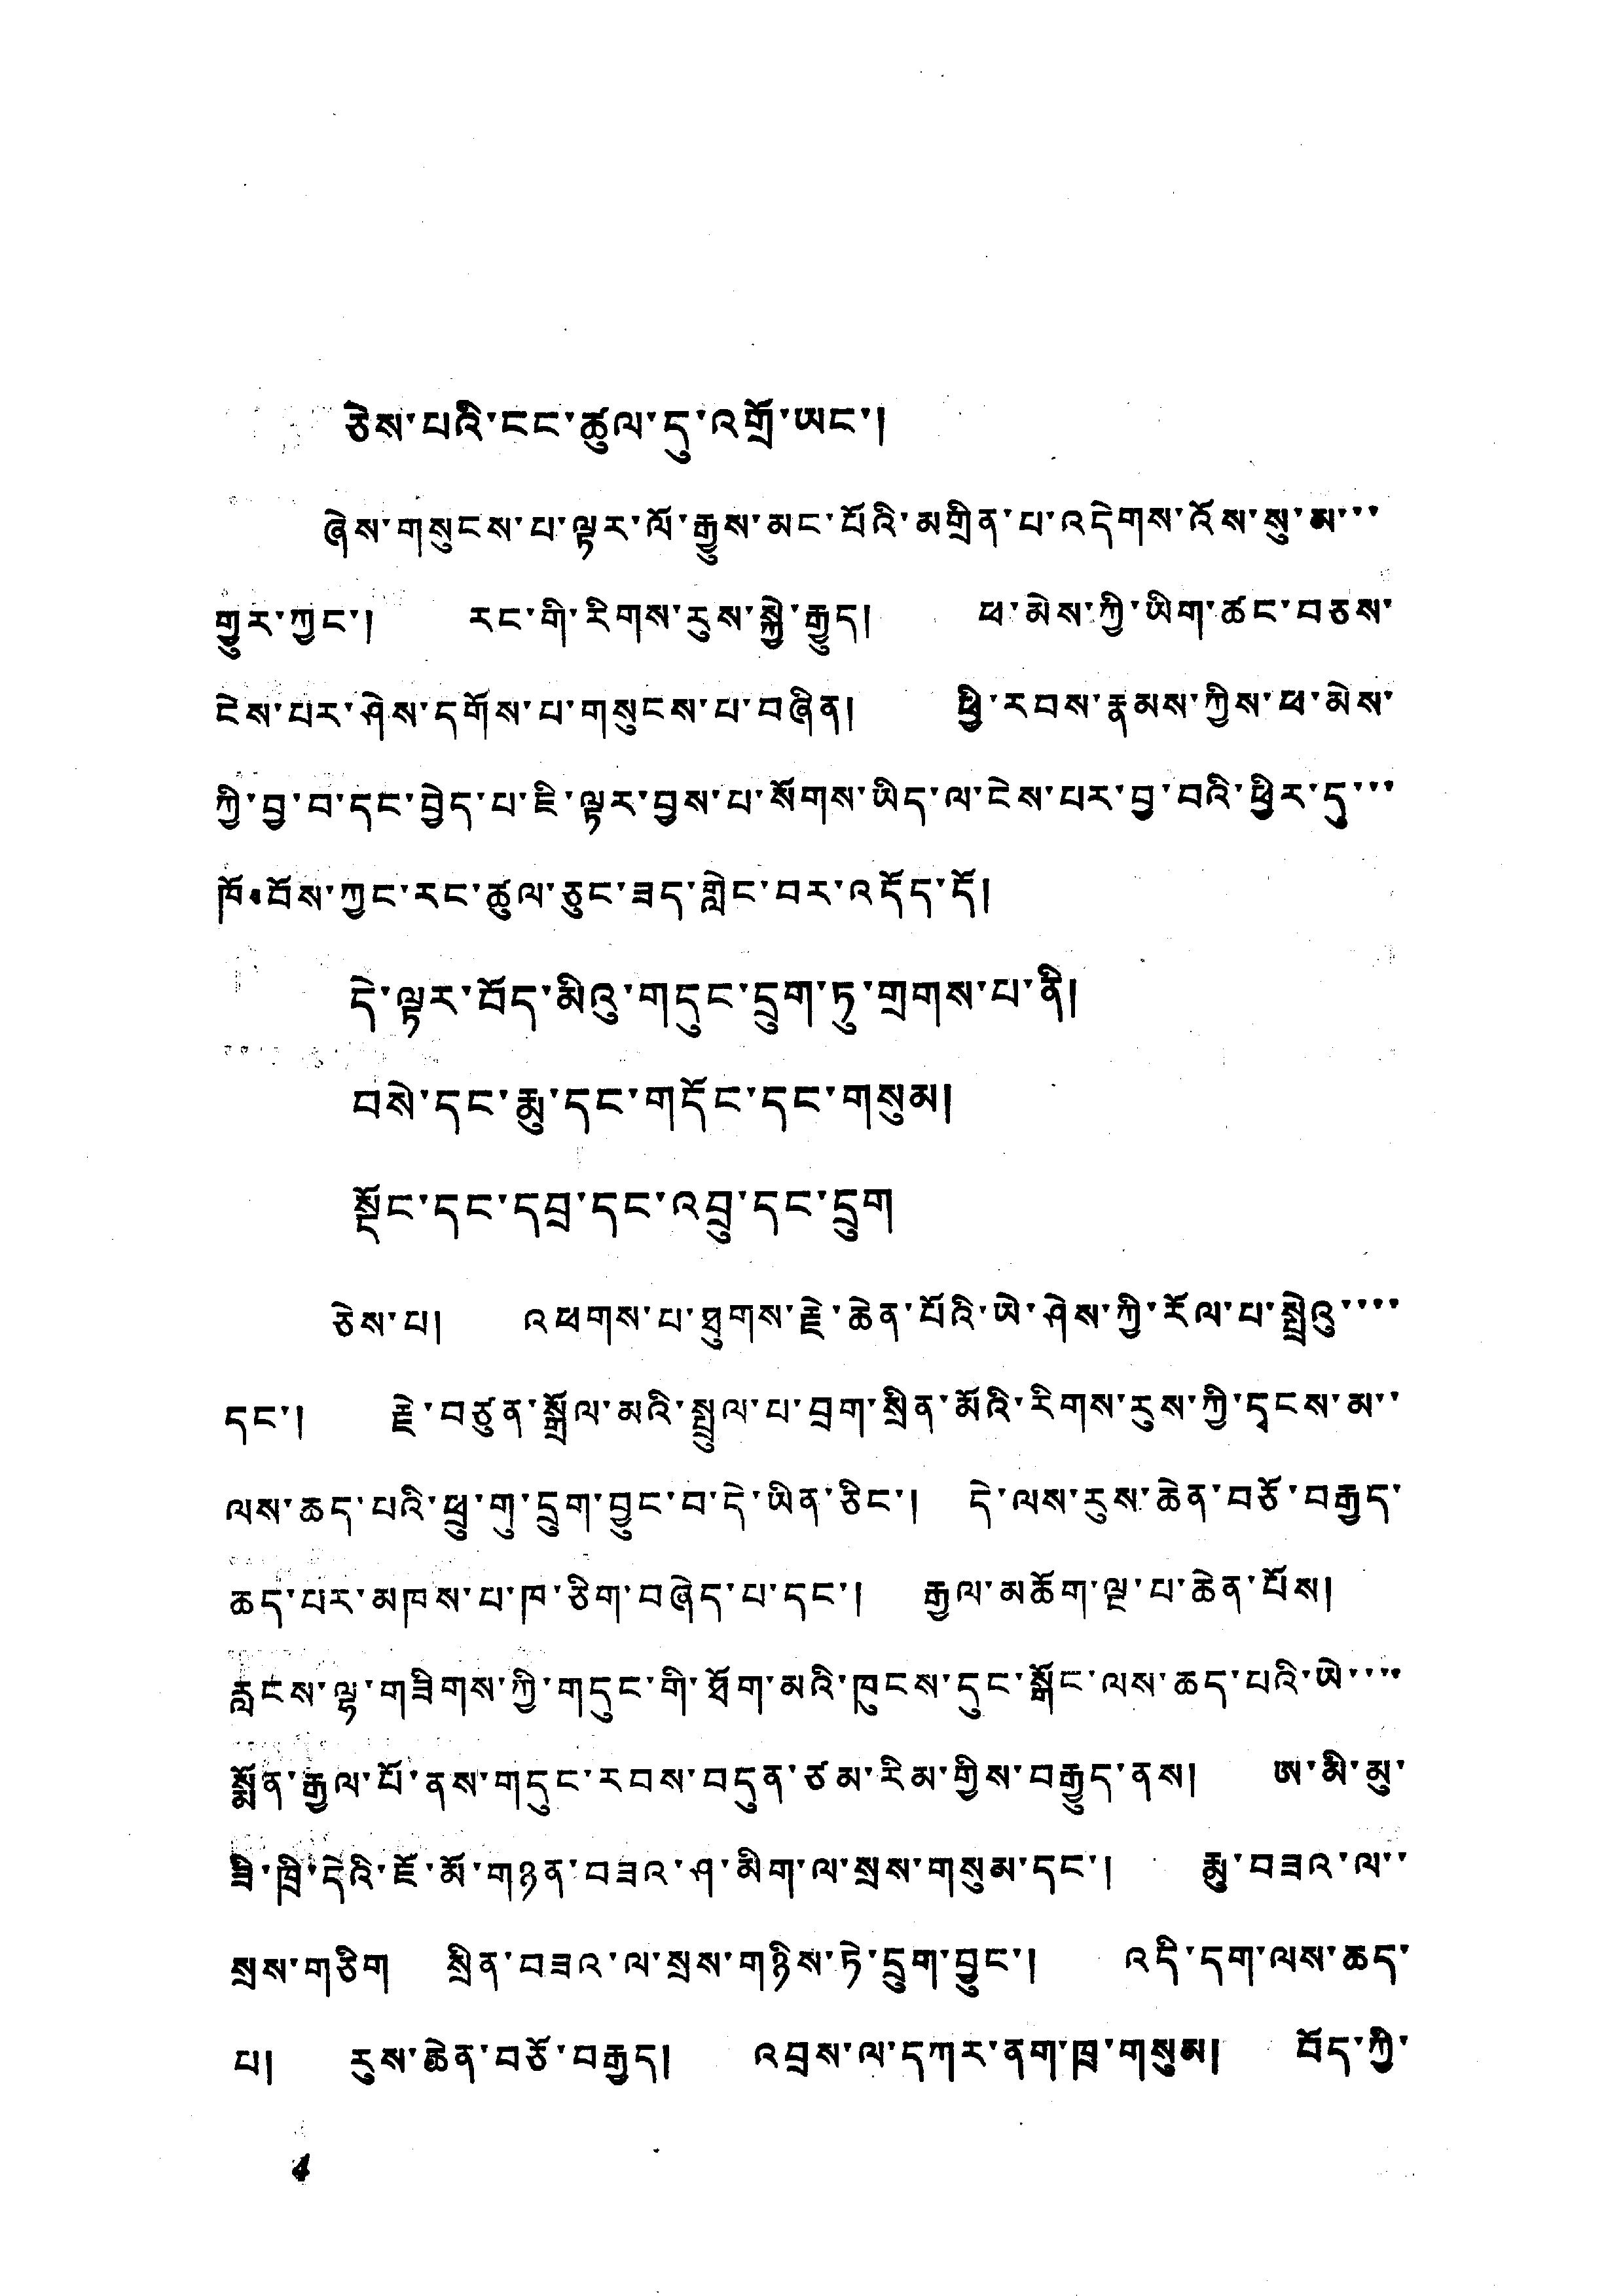ཅེས་པའི་ངང་ཚུལ་དུ་འགྲོ་ཡང་།
ཞེས་གསུངས་པ་ལྟར་ལོ་རྒྱུས་མང་པོའི་མགྲིན་པ་འདེགས་འོས་སུ་མ་་་
གྱུར་ཀྱང་། རང་གི་རིགས་རུས་སྐྱེ་རྒྱུད། ཕ་མེས་ཀྱི་ཡིག་ཚང་བཅས་
ངེས་པར་ཤེས་དགོས་པ་གསུངས་པ་བཞིན། ཕྱི་རབས་རྣམས་ཀྱིས་ཕ་མེས་
ཀྱི་བྱ་བ་དང་བྱེད་པ་ཇི་ལྟར་བྱས་པ་སོགས་ཡིད་ལ་ངེས་པར་བྱ་བའི་ཕྱིར་དུ་་་
ཁོ་བོས་ཀྱང་རང་ཚུལ་ཅུང་ཟད་གླེང་བར་འདོད་དོ།
དེ་ལྟར་བོད་མིའུ་གདུང་དྲུག་ཏུ་གྲགས་པ་ནི།
བསེ་དང་རྨུ་དང་གདོང་དང་གསུམ།
སྡོང་དང་དབྲ་དང་འབྲུ་དང་དྲུག
ཅེས་པ། འཕགས་པ་ཐུགས་རྗེ་ཆེན་པོའི་ཡེ་ཤེས་ཀྱི་རོལ་པ་སྤྲེའུ་་་་
དང་། རྗེ་བཙུན་སྒྲོལ་མའི་སྤྲུལ་པ་བྲག་སྲིན་མོའི་རིགས་རུས་ཀྱི་དྭངས་མ་་
ལས་ཆད་པའི་ཕྲུ་གུ་དྲུག་བྱུང་བ་དེ་ཡིན་ཅིང་། དེ་ལས་རུས་ཆེན་བཅོ་བརྒྱད་
ཆད་པར་མཁས་པ་ཁ་ཅིག་བཞེད་པ་དང་། རྒྱལ་མཆོག་ལྔ་པ་ཆེན་པོས།
རླངས་ལྷ་གཟིགས་ཀྱི་གདུང་གི་ཐོག་མའི་ཁུངས་དང་སྒོང་ལས་ཆད་པའི་ཡེ་་་་
སྨོན་རྒྱལ་པོ་ནས་གདུང་རབས་བདུན་ཙམ་རིམ་གྱིས་བཅུད་ནས། ཨ་མི་མུ་
ཟི་ཁྲི་དེའི་ཇོ་མོ་གཉན་བཟའ་ཤ་མིག་ལ་སྲས་གསུམ་དང་། མུ་བཟའ་ལ་་
སྲས་གཅིག སྲིན་བཟའ་ལ་སྲས་གཉིས་ཏེ་དྲུག་བྱུང་། འདི་དག་ལས་ཆད་
པ། རུས་ཆེན་བཅོ་བརྒྱད། འབྲས་ལ་དཀར་ནག་ཁྲ་གསུམ། བོད་ཀྱི་
4
